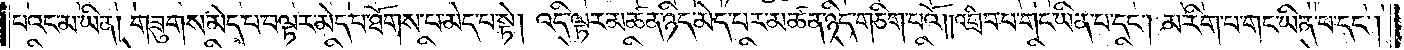པའང་མ་ཡིན། གཟུགས་མེད་པ་བལྟར་མེད་པ་ཐོགས་པ་མེད་པ་སྟེ། འདི་ལྟར་མཚན་ཉིད་མེད་པར་མཚན་ཉིད་གཅིག་པའོ། །འགྲིབ་པ་གང་ཡིན་པ་དང༌། མ་རིག་པ་གང་ཡིན་པ་དང༌།
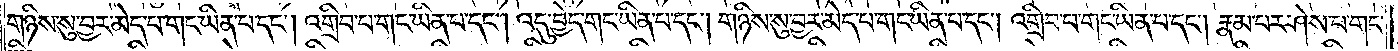གཉིས་སུ་བྱར་མེད་པ་གང་ཡིན་པ་དང༌། འགྲིབ་པ་གང་ཡིན་པ་དང༌། འདུ་བྱེད་གང་ཡིན་པ་དང༌། གཉིས་སུ་བྱར་མེད་པ་གང་ཡིན་པ་དང༌། འགྲིབ་པ་གང་ཡིན་པ་དང༌། རྣམ་པར་ཤེས་པ་གང་
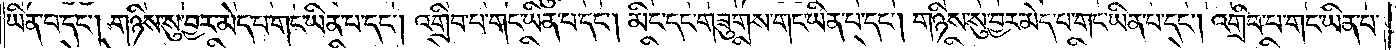ཡིན་པ་དང༌། གཉིས་སུ་བྱར་མེད་པ་གང་ཡིན་པ་དང༌། འགྲིབ་པ་གང་ཡིན་པ་དང༌། མིང་དང་གཟུགས་གང་ཡིན་པ་དང༌། གཉིས་སུ་བྱར་མེད་པ་གང་ཡིན་པ་དང༌། འགྲིབ་པ་གང་ཡིན་པ་
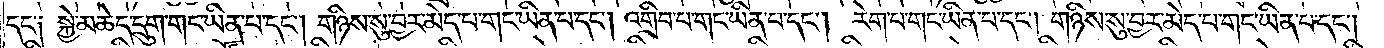དང༌༏ སྐྱེ་མཆེད་དྲུག་གང་ཡིན་པ་དང༌། གཉིས་སུ་བྱར་མེད་པ་གང་ཡིན་པ་དང༌། འགྲིབ་པ་གང་ཡིན་པ་དང༌། རེག་པ་གང་ཡིན་པ་དང༌། གཉིས་སུ་བྱར་མེད་པ་གང་ཡིན་པ་དང༌།
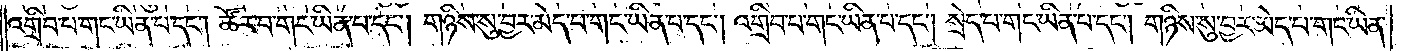འགྲིབ་པ་གང་ཡིན་པ་དང༌། ཚོར་བ་གང་ཡིན་པ་དང༌། གཉིས་སུ་བྱར་མེད་པ་གང་ཡིན་པ་དང་འགྲིབ་པ་གང་ཡིན་པ་དང༌། སྲེད་པ་གང་ཡིན་པ་དང༌། གཉིས་སུ་བྱར་མེད་པ་གང་ཡིན་
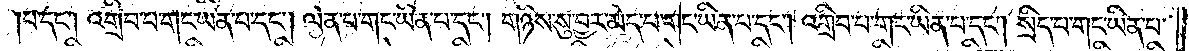པ་དང༌༏ འགྲིབ་པ་གང་ཡིན་པ་དང༌། ལེན་པ་གང་ཡིན་པ་དང༌། གཉིས་སུ་བྱར་མེད་པ་གང་ཡིན་པ་དང༌། འགྲིབ་པ་གང་ཡིན་པ་དང༌། སྲིད་པ་གང་ཡིན་པ་
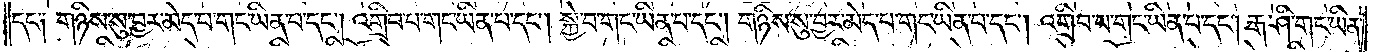དང༌༏ གཉིས་སུ་བྱར་མེད་པ་གང་ཡིན་པ་དང༌། འགྲིབ་པ་གང་ཡིན་པ་དང༌། སྐྱེ་བ་གང་ཡིན་པ་དང༌། གཉིས་སུ་བྱར་མེད་པ་གང་ཡིན་པ་དང༌། འགྲིབ་པ་གང་ཡིན་པ་དང༌། རྒ་ཤི་གང་ཡིན་
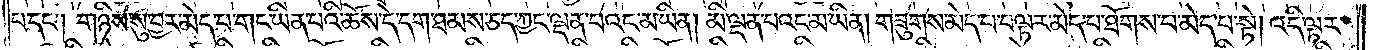པ་དང༌༏ གཉིས་སུ་བྱར་མེད་པ་གང་ཡིན་པའི་ཆོས་དེ་དག་ཐམས་ཅད་ཀྱང་ལྡན་པའང་མ་ཡིན། མི་ལྡན་པའང་མ་ཡིན། གཟུགས་མེད་པ་བལྟར་མེད་པ་ཐོགས་པ་མེད་པ་སྟེ། འདི་ལྟར་
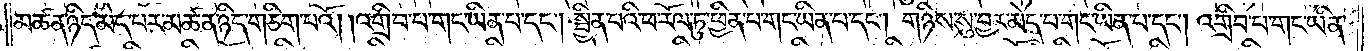མཚན་ཉིད་མེད་པར་མཚན་ཉིད་གཅིག་པའོ། །འགྲིབ་པ་གང་ཡིན་པ་དང༌། སྦྱིན་པའི་ཕ་རོལ་ཏུ་ཕྱིན་པ་གང་ཡིན་པ་དང༌། གཉིས་སུ་བྱར་མེད་པ་གང་ཡིན་པ་དང༌། འགྲིབ་པ་གང་ཡིན་
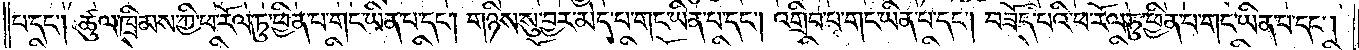པ་དང༌༏ ཚུལ་ཁྲིམས་ཀྱི་ཕ་རོལ་ཏུ་ཕྱིན་པ་གང་ཡིན་པ་དང༌། གཉིས་སུ་བྱར་མེད་པ་གང་ཡིན་པ་དང༌། འགྲིབ་པ་གང་ཡིན་པ་དང༌། བཟོད་པའི་ཕ་རོལ་ཏུ་ཕྱིན་པ་གང་ཡིན་པ་དང༌།
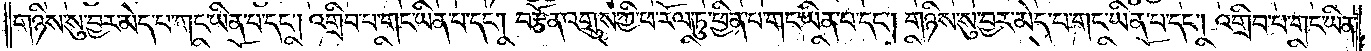གཉིས་སུ་བྱར་མེད་པ་གང་ཡིན་པ་དང༌། འགྲིབ་པ་གང་ཡིན་པ་དང༌། བརྩོན་འགྲུས་ཀྱི་ཕ་རོལ་ཏུ་ཕྱིན་པ་གང་ཡིན་པ་དང༌།གཉིས་སུ་བྱར་མེད་པ་གང་ཡིན་པ་དང༌། འགྲིབ་པ་གང་ཡིན་
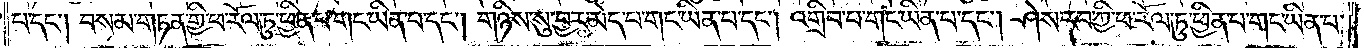པ་དང༌༏ བསམ་གཏན་གྱི་ཕ་རོལ་ཏུ་ཕྱིན་པ་གང་ཡིན་པ་དང༌། གཉིས་སུ་བྱར་མེད་པ་གང་ཡིན་པ་དང༌། འགྲིབ་པ་གང་ཡིན་པ་དང༌། ཤེས་རབ་ཀྱི་ཕ་རོལ་ཏུ་ཕྱིན་པ་གང་ཡིན་པ་
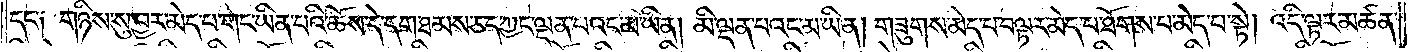དང༌༏ གཉིས་སུ་བྱར་མེད་པ་གང་ཡིན་པའི་ཆོས་དེ་དག་ཐམས་ཅད་ཀྱང་ལྡན་པའང་མ་ཡིན། མི་ལྡན་པའང་མ་ཡིན། གཟུགས་མེད་པ་བལྟར་མེད་པ་ཐོགས་པ་མེད་པ་སྟེ། འདི་ལྟར་མཚན་
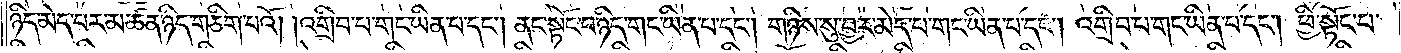ཉིད་མེད་པར་མཚན་ཉིད་གཅིག་པའོ། །འགྲིབ་པ་གང་ཡིན་པ་དང༌། ནང་སྟོང་པ་ཉིད་གང་ཡིན་པ་དང༌། གཉིས་སུ་བྱར་མེད་པ་གང་ཡིན་པ་དང༌། འགྲིབ་པ་གང་ཡིན་པ་དང༌། ཕྱི་སྟོང་པ་
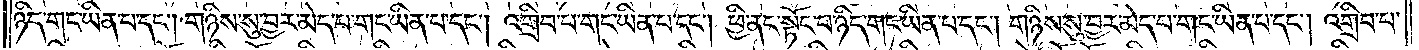ཉིད་གང་ཡིན་པ་དང༌། གཉིས་སུ་བྱར་མེད་པ་གང་ཡིན་པ་དང༌། འགྲིབ་པ་གང་ཡིན་པ་དང༌། ཕྱི་ནང་སྟོང་པ་ཉིད་གང་ཡིན་པ་དང༌། གཉིས་སུ་བྱར་མེད་པ་གང་ཡིན་པ་དང༌། འགྲིབ་པ་
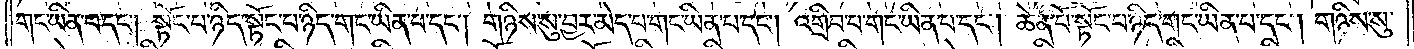གང་ཡིན་པ་དང༌། སྟོང་པ་ཉིད་སྟོང་པ་ཉིད་གང་ཡིན་པ་དང༌། གཉིས་སུ་བྱར་མེད་པ་གང་ཡིན་པ་དང༌། འགྲིབ་པ་གང་ཡིན་པ་དང༌། ཆེན་པོ་སྟོང་པ་ཉིད་གང་ཡིན་པ་དང༌། གཉིས་སུ་
